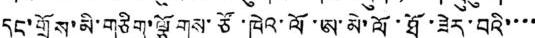དང་གྲོས་མི་གཅིག་ལྕོགས་ཙོ་ཁེའ་ལོ་ཨ་མེ་ལོ་ཐོ་ཟེར་བའི་་་་
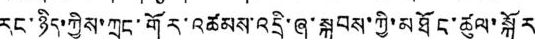རང་ཉིད་ཀྱིས་ཀྲུང་གོར་འཚམས་འདྲི་ཞུ་སྐབས་ཀྱི་མཐོང་ཚུལ་སྐོར
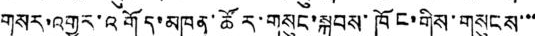གསར་འགྱུར་འགོད་མཁན་ཚོར་གསུང་སྐབས་ཁོང་གིས་གསུངས་་་
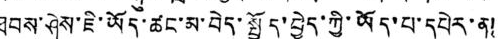ཐབས་ཤེས་ཇི་ཡོད་ཚང་མ་བེད་སྤྱོད་ཀྱི་ཡོད་པ་དཔེར་ན།
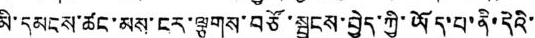མི་དམངས་ཚང་མས་ངར་ལྕགས་བཙོ་སྦྱངས་བྱེད་ཀྱི་ཡོད་པ་ནི་དེའི་
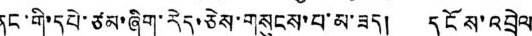ནང་གི་དཔེ་ཙམ་ཞིག་རེད་ཅེས་གསུངས་པ་མ་ཟད། དངོས་འབྲེལ
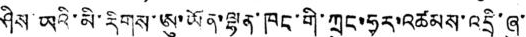ཤིས་ཡའི་མི་རིགས་ཨུ་ཡོན་ལྷན་ཁང་གི་ཀྲུང་ཧྭར་འཚམས་འདྲི་ཞུ་་་
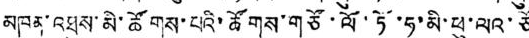མཁན་འཐུས་མི་ཚོགས་པའི་ཚོགས་གཙོ་ལོ་ཏོ་ཧ་མི་ཕུ་ལའ་ཙོ
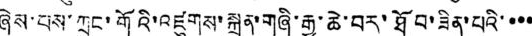ཞེས་པས་ཀྲུང་གོའི་འཛུགས་སྐྲུན་གཞི་རྒྱ་ཆེ་བར་ཐོབ་ཟིན་པའི་་་་
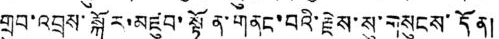གྲུབ་འབྲས་སྐོར་མཛུབ་སྟོན་གནང་བའི་རྗེས་སུ་གསུངས་དོན།
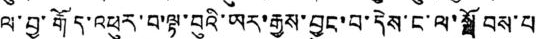ལ་བྱ་རྒོད་འཕུར་བ་ལྟ་བུའི་ཡར་རྒྱས་བྱུང་བ་དེས་ང་ལ་སྤོབས་པ
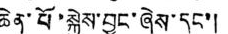ཆེན་པོ་སྐྱེས་བྱུང་ཞེས་དང་།
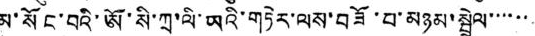མ་སོང་བའི་ཨོ་སི་ཀྲ་ལི་ཡའི་གཏེར་ལས་བཟོ་པ་མཉམ་སྦྲེལ་་་་་་
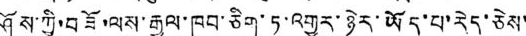ཤོས་ཀྱི་བཟོ་ལས་རྒྱལ་ཁབ་ཅིག་ཏུ་འགྱུར་ཉེར་ཡོད་པ་རེད་ཅེས་
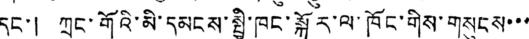དང་། ཀྲུང་གོའི་མི་དམངས་སྤྱི་ཁང་སྐོར་ལ་ཁོང་གིས་གསུངས་་་
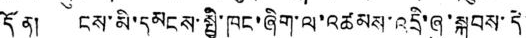དོན། ངས་མི་དམངས་སྤྱི་ཁང་ཞིག་ལ་འཚམས་འདྲི་ཞུ་སྐབས་དེ་
